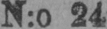N:o 24.
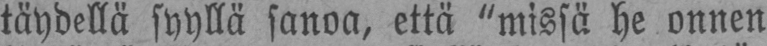täydellä syyllä sanoa, että "missä he onnen
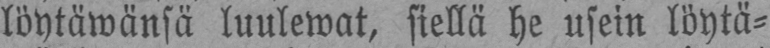löytäwänsä luulewat, siellä he usein löytä-
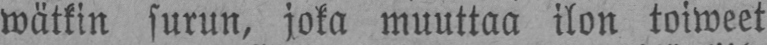wätkin surun, joka muuttaa ilon toiweet
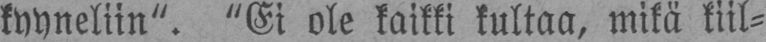kyyneliin". "Ei ole kaikki kultaa, mikä kiil-
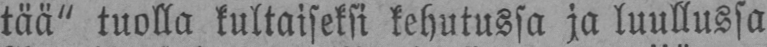tää" tuolla kultaiseksi kehutussa ja luullussa
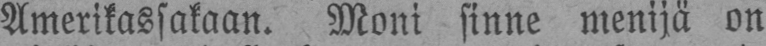Amerikassakaan. Moni sinne menijä on
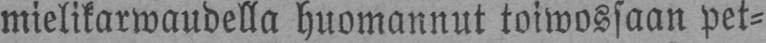mielikarwaudella huomannut toiwossaan pet-
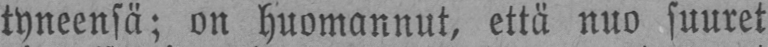tyneensä; on huomannut, että nuo suuret
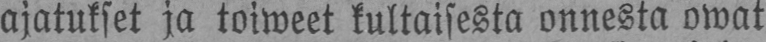ajatukset ja toiweet kultaisesta onnesta owat
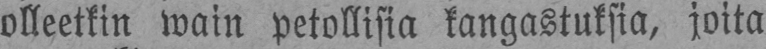olleetkin wain petollisia kangastuksia, joita
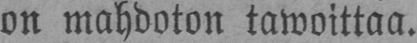on mahdoton tawoittaa.
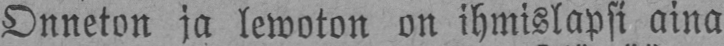Onneton ja lewoton on ihmislapsi aina
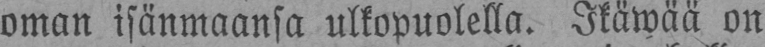oman isänmaansa ulkopuolella. Ikäwää on
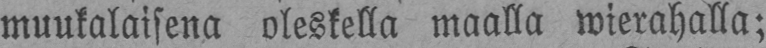muukalaisena oleskella maalla wierahalla;
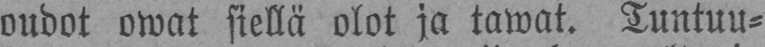oudot owat siellä olot ja tawat. Tuntuu-
